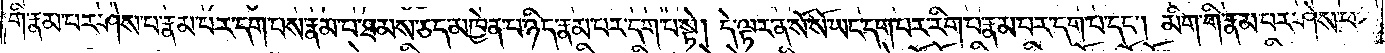གི་རྣམ་པར་ཤེས་པ་རྣམ་པར་དག་པས་རྣམ་པ་ཐམས་ཅད་མཁྱེན་པ་ཉིད་རྣམ་པར་དག་པ་སྟེ། དེ་ལྟར་ན་སོ་སོ་ཡང་དག་པར་རིག་པ་རྣམ་པར་དག་པ་དང༌། མིག་གི་རྣམ་པར་ཤེས་པ་
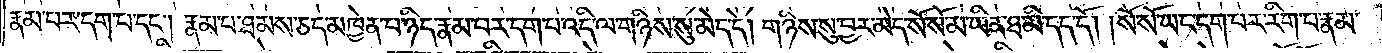རྣམ་པར་དག་པ་དང༌། རྣམ་པ་ཐམས་ཅད་མཁྱེན་པ་ཉིད་རྣམ་པར་དག་པ་འདི་ལ་གཉིས་སུ་མེད་དེ། གཉིས་སུ་བྱར་མེད་སོ་སོ་མ་ཡིན་ཐ་མི་དད་དོ། །སོ་སོ་ཡང་དག་པར་རིག་པ་རྣམ་
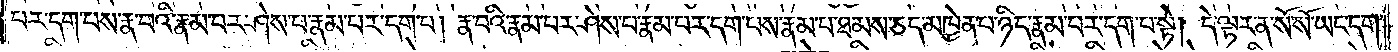པར་དག་པས་རྣ་བའི་རྣམ་པར་ཤེས་པ་རྣམ་པར་དག་པ། རྣ་བའི་རྣམ་པར་ཤེས་པ་རྣམ་པར་དག་པས་རྣམ་པ་ཐམས་ཅད་མཁྱེན་པ་ཉིད་རྣམ་པར་དག་པ་སྟེ། དེ་ལྟར་ན་སོ་སོ་ཡང་དག་
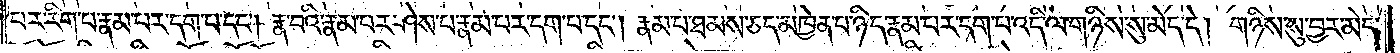པར་རིག་པ་རྣམ་པར་དག་པ་དང༌། རྣ་བའི་རྣམ་པར་ཤེས་པ་རྣམ་པར་དག་པ་དང༌། རྣམ་པ་ཐམས་ཅད་མཁྱེན་པ་ཉིད་རྣམ་པར་དག་པ་འདི་ལ་གཉིས་སུ་མེད་དེ། གཉིས་སུ་བྱར་མེད་
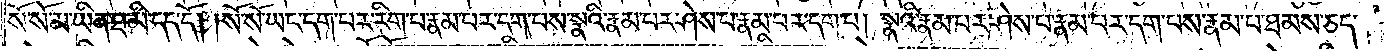སོ་སོ་མ་ཡིན་ཐ་མི་དད་དོ། །སོ་སོ་ཡང་དག་པར་རིག་པ་རྣམ་པར་དག་པས་སྣའི་རྣམ་པར་ཤེས་པ་རྣམ་པར་དག་པ། སྣའི་རྣམ་པར་ཤེས་པ་རྣམ་པར་དག་པས་རྣམ་པ་ཐམས་ཅད་
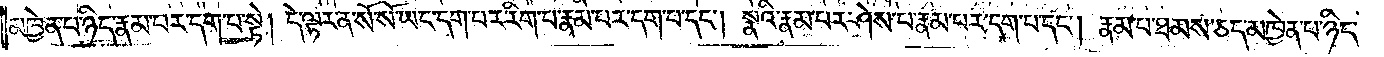མཁྱེན་པ་ཉིད་རྣམ་པར་དག་པ་སྟེ། དེ་ལྟར་ན་སོ་སོ་ཡང་དག་པར་རིག་པ་རྣམ་པར་དག་པ་དང༌། སྣའི་རྣམ་པར་ཤེས་པ་རྣམ་པར་དག་པ་དང༌། རྣམ་པ་ཐམས་ཅད་མཁྱེན་པ་ཉིད་
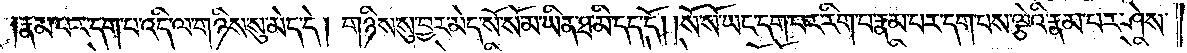རྣམ་པར་དག་པ་འདི་ལ་གཉིས་སུ་མེད་དེ། གཉིས་སུ་བྱར་མེད་སོ་སོ་མ་ཡིན་ཐ་མི་དད་དོ། །སོ་སོ་ཡང་དག་པར་རིག་པ་རྣམ་པར་དག་པས་ལྕེའི་རྣམ་པར་ཤེས་
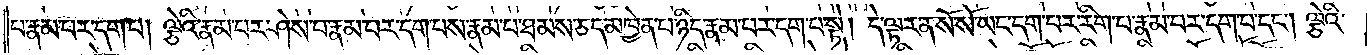པ་རྣམ་པར་དག་པ། ལྕེའི་རྣམ་པར་ཤེས་པ་རྣམ་པར་དག་པས་རྣམ་པ་ཐམས་ཅད་མཁྱེན་པ་ཉིད་རྣམ་པར་དག་པ་སྟེ། དེ་ལྟར་ན་སོ་སོ་ཡང་དག་པར་རིག་པ་རྣམ་པར་དག་པ་དང༌། ལྕེའི་
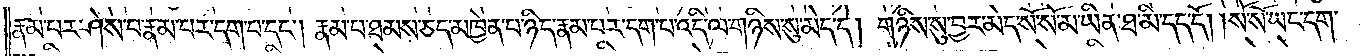རྣམ་པར་ཤེས་པ་རྣམ་པར་དག་པ་དང༌། རྣམ་པ་ཐམས་ཅད་མཁྱེན་པ་ཉིད་རྣམ་པར་དག་པ་འདི་ལ་གཉིས་སུ་མེད་དེ། གཉིས་སུ་བྱར་མེད་སོ་སོ་མ་ཡིན་ཐ་མི་དད་དོ། །སོ་སོ་ཡང་དག་
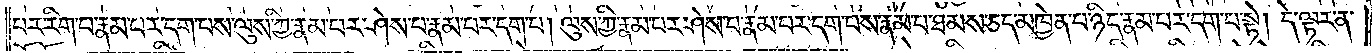པར་རིག་པ་རྣམ་པར་དག་པས་ལུས་ཀྱི་རྣམ་པར་ཤེས་པ་རྣམ་པར་དག་པ། ལུས་ཀྱི་རྣམ་པར་ཤེས་པ་རྣམ་པར་དག་པས་རྣམ་པ་ཐམས་ཅད་མཁྱེན་པ་ཉིད་རྣམ་པར་དག་པ་སྟེ། དེ་ལྟར་ན་
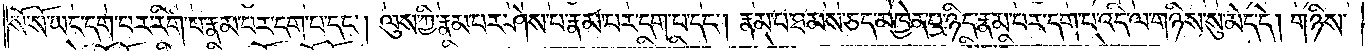སོ་སོ་ཡང་དག་པར་རིག་པ་རྣམ་པར་དག་པ་དང༌། ལུས་ཀྱི་རྣམ་པར་ཤེས་པ་རྣམ་པར་དག་པ་དང༌། རྣམ་པ་ཐམས་ཅད་མཁྱེན་པ་ཉིད་རྣམ་པར་དག་པ་འདི་ལ་གཉིས་སུ་མེད་དེ། གཉིས་
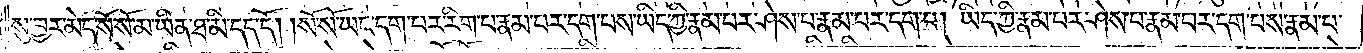སུ་བྱར་མེད་སོ་སོ་མ་ཡིན་ཐ་མི་དད་དོ། །སོ་སོ་ཡང་དག་པར་རིག་པ་རྣམ་པར་དག་པས་ཡིད་ཀྱི་རྣམ་པར་ཤེས་པ་རྣམ་པར་དག་པ། ཡིད་ཀྱི་རྣམ་པར་ཤེས་པ་རྣམ་པར་དག་པས་རྣམ་པ་
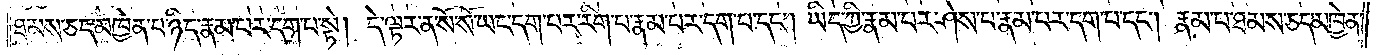ཐམས་ཅད་མཁྱེན་པ་ཉིད་རྣམ་པར་དག་པ་སྟེ། དེ་ལྟར་ན་སོ་སོ་ཡང་དག་པར་རིག་པ་རྣམ་པར་དག་པ་དང༌། ཡིད་ཀྱི་རྣམ་པར་ཤེས་པ་རྣམ་པར་དག་པ་དང༌། རྣམ་པ་ཐམས་ཅད་མཁྱེན་
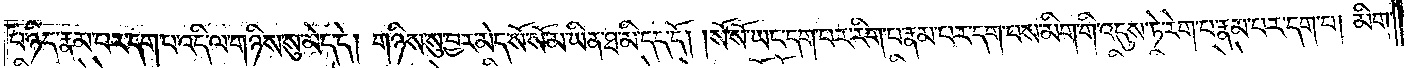པ་ཉིད་རྣམ་པར་དག་པ་འདི་ལ་གཉིས་སུ་མེད་དེ། གཉིས་སུ་བྱར་མེད་སོ་སོ་མ་ཡིན་ཐ་མི་དད་དོ། །སོ་སོ་ཡང་དག་པར་རིག་པ་རྣམ་པར་དག་པས་མིག་གི་འདུས་ཏེ་རེག་པ་རྣམ་པར་དག་པ། མིག་
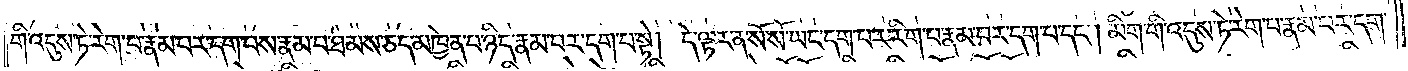གི་འདུས་ཏེ་རེག་པ་རྣམ་པར་དག་པས་རྣམ་པ་ཐམས་ཅད་མཁྱེན་པ་ཉིད་རྣམ་པར་དག་པ་སྟེ། དེ་ལྟར་ན་སོ་སོ་ཡང་དག་པར་རིག་པ་རྣམ་པར་དག་པ་དང༌། མིག་གི་འདུས་ཏེ་རེག་པ་རྣམ་པར་དག་
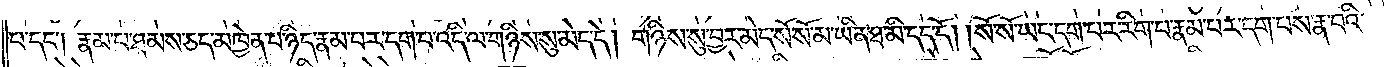པ་དང༌། རྣམ་པ་ཐམས་ཅད་མཁྱེན་པ་ཉིད་རྣམ་པར་དག་པ་འདི་ལ་གཉིས་སུ་མེད་དེ། གཉིས་སུ་བྱར་མེད་སོ་སོ་མ་ཡིན་ཐ་མི་དད་དོ། །སོ་སོ་ཡང་དག་པར་རིག་པ་རྣམ་པར་དག་པས་རྣ་བའི་
